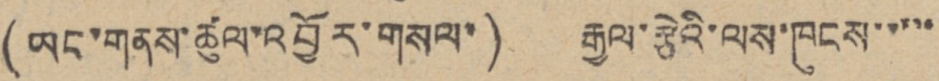(ཡང་གནས་ཚུལ་འབྱོར་གསལ་) རྒྱལ་རྩེའི་ལས་ཁུངས་་་་་
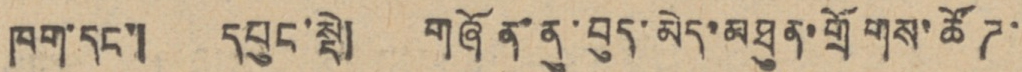ཁག་དང་། དཔུང་སྡེ། གཞོན་ནུ་བུད་མེད་མཐུན་གྲོགས་ཚོཊ་
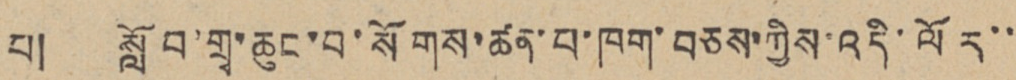པ། སློབ་གྲྭ་ཆུང་བ་སོགས་ཚན་པ་ཁག་བཅས་ཀྱིས་འདི་ལོར་་
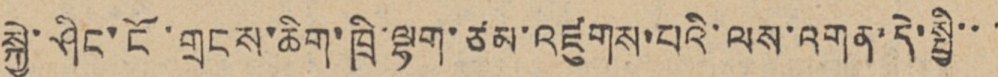སྐྱེ་ཤིང་ངོ་གྲངས་ཆིག་ཁྲི་ལྷག་ཙམ་འཛུགས་པའི་ལས་འགན་དེ་སྤྱི་་་་
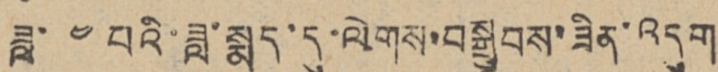ཟླ་ ༤ པའི་ཟླ་སྨད་དུ་ལེགས་བསྒྲུབས་ཟིན་འདུག
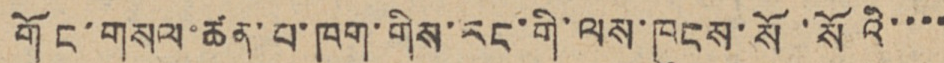གོང་གསལ་ཚན་པ་ཁག་གིས་རང་གི་ལས་ཁུངས་སོ་སོའི་་་་
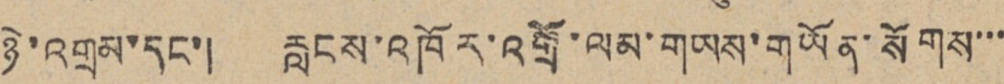ཉེ་འགྲམ་དང་། རླངས་འཁོར་འགྲོ་ལམ་གཡས་གཡོན་སོགས་་་
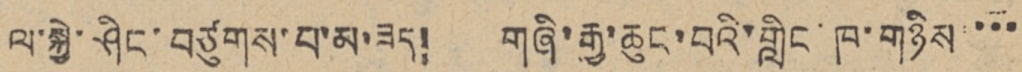ལ་སྐྱེ་ཤིང་བཙུགས་པ་མ་ཟད། གཞི་རྒྱ་ཆུང་བའི་གླིང་ཁ་གཉིས་་་་
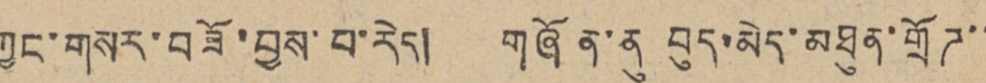ཀྱང་གསར་བཟོ་བྱས་པ་རེད། གཞོན་ནུ བུད་མེད་མཐུན་གྲོཊ་་
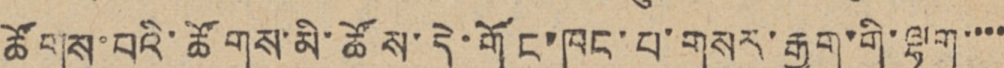ཚོགས་པའི་ཚོགས་མི་ཚོས་དེ་གོང་ཁང་བ་གསར་རྒྱག་གི་ལྷག་་་་
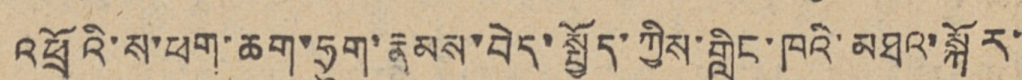འཕྲོའི་ས་ཕག་ཆག་ཧྲུག་རྣམས་བེད་སྤྱོད་ཀྱིས་གླིང་ཁའི་མཐའ་སྐོར་
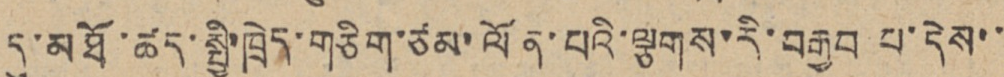དུ་མཐོ་ཚད་སྤྱི་ཁྲེད་གཅིག་ཙམ་ལོན་པའི་ལྕགས་རི་བརྒྱབ པ་དེས་་
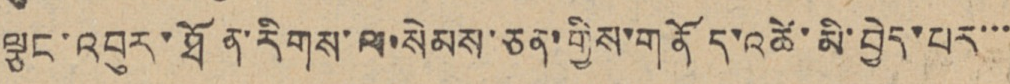ལྕང་འབུར་ཐོན་རིགས་ལ་སེམས་ཅན་གྱིས་གནོད་འཚེ་མི་བྱེད་པར་་་
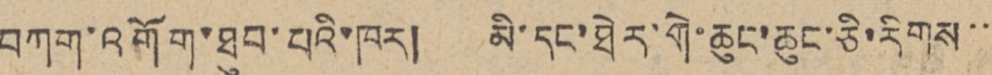བཀག་འགོག་ཐུབ་པའི་ཁར། མི་དང་ཐེར་གེ་ཆུང་ཆུང་ཅི་རིགས་་་
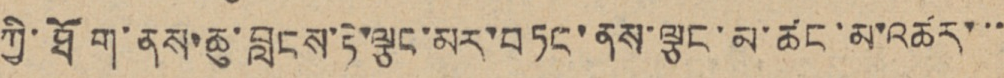ཀྱི་ཐོག་ནས་ཆུ་བླངས་ཏེ་ལྕང་མར་བཏང་ནས་ལྕང་མ་ཚང་མ་འཚར་་་
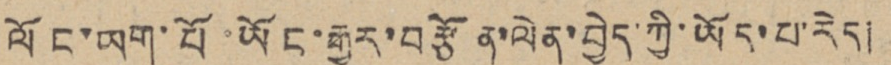ལོང་ཡག་པོ་ཡོང་རྒྱུར་བརྩོན་ལེན་བྱེད་ཀྱི་ཡོད་པ་རེད།
